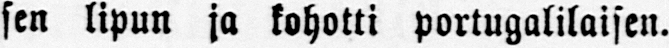sen lipun ja kohotti portugalilaisen.
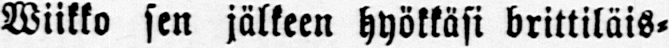Wiikko sen jälkeen hyökkäsi brittiläis-
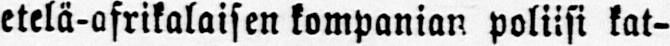etelä-afrikalaisen kampanian poliisi kat-
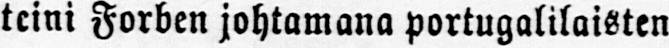teini Forben johtamana portugalilaisten
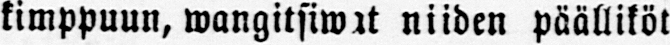kimppuun, wangitsiwit niiden päälliköt
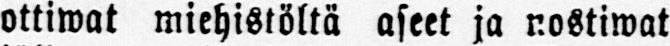ottiwat miehistöltä aseet ja nostiwat
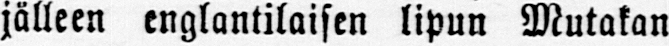jälleen englantilaisen lipun Mutakan
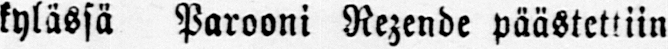kylässä Parooni Rezende päästettiin
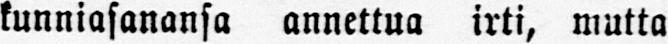kunniasanansa annettua irti, mutta
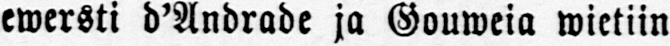ewersti d'Andrade ja Gouweia wietiin
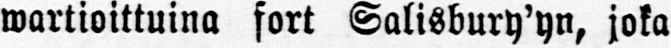wartioittuina fort Salisbury'yn, joka
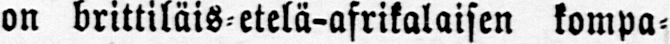on brittiläis-etelä-afrikalaisen kompa-
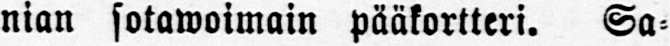nian sotawoimain pääkortteri. Sa-
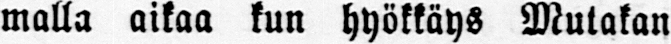malla aikaa kun hyökkäys Mutakan
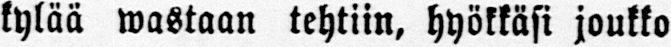kylää wastaan tehtiin, hyökkäsi joukko
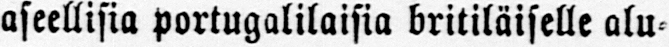aseellisia portugalilaisia britiläiselle alu-
